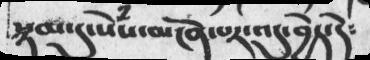སྙམ་དུ་སེཾས་མངོན་པར་འདུ་བྱེད་དེ༴
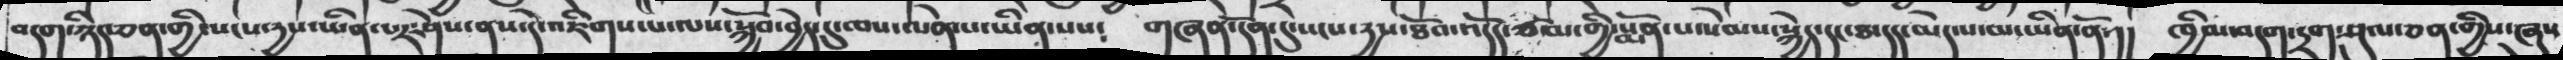བདག་ཉིད་ཅན་གྱི་སངས་རྒྱས་ཡིན་པར་ཤེས་ནས་དེ་འཇིགས་པ་ལས་སྐྱོབ་བྱེད་དུ་ཁེས་ལེན་པ་ཡིན་པས༴    གཞན་དོན་དུ་སངས་རྒྱས་ཐོབ་འདོད་ཙམ་གྱི་སྨོན་པ་སེམས་སྐྱེད་དང་ཐ་དད་མེད་པ་མ་ཡིན་ནོ་།།   ཁྱིམ་བདག་ཏྲག་ཤུལ་ཅན་གྱིས་ཞུས
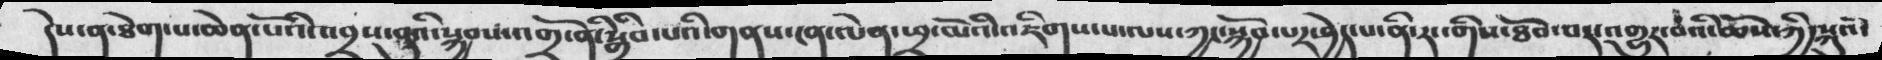དེས་ན་ཐེག་པ་ཆེན་པོའི་འབྲས་བུའི་སྐྱབས་འགྲོ་ནི་སྒྲིབ་པའི་གནས་ངན་ལེན་ཕྲ་མོའི་འཇིགས་པ་ལས་ཀྱང་སྐྱོབ་པར་བྱེད་པ་ནི་རང་གིས་ཐོབ་པར་འགྱུར་བའི་ཆོས་ཀྱི་སྐུའོ
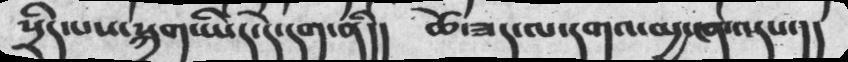སྲིད་པས་སྐྲག་ཡིད་དེ་དག་ནི།།    ཆོས་ཟད་ལ་དགའ་མྱ་ངན་འདས་།།
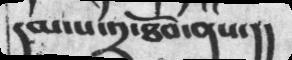དམ་པ་༢་ཐོབ་ནས་།།
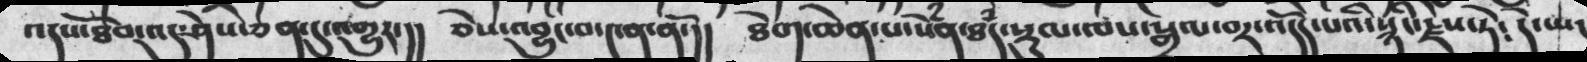འདས་ཐོབ་འདུ་ཤེས་ཅན་དུ་འགྱུར་།།   ཅེས་འབྱུང་བ་༤ན་ནོ་།།    ཐེག་ཆེན་པ་སེནྃ་ཐྃད་སྡུལ་ལས་སྒྲལ་བར་འདོད་པའི་སྙིང་རྗེས་ཏེ༴  དེ་ཡང་
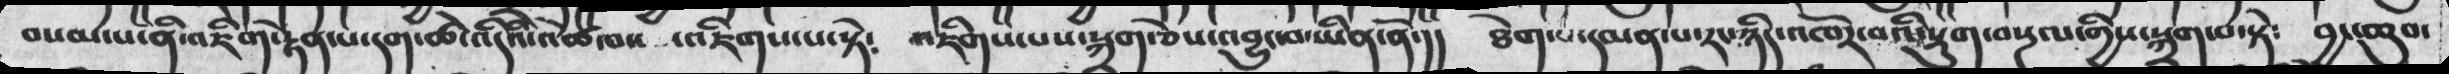བསམ་པ་ནི་འཇིག་རྟེན་པ་དག་ཚེ་འདིའི་འཚོ་བས་འཇིགས་པ་སྟེ༴  འཇིག་པས་སྐྲག་ཅེས་འབྱུང་བ་ཡིན་ནོ་།།   ཐེག་པ་དམན་པ་རང་ཉིད་འཁོར་བའི་སྡུག་བསྔལ་གྱིས་སྐྲག་པ་སྟེ༴   བྱང་ཆུབ་
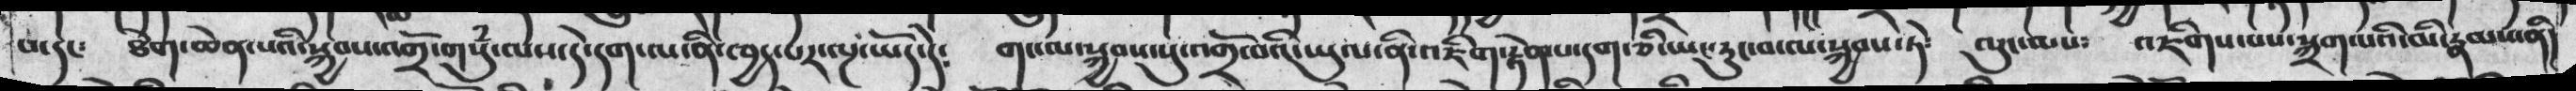བ་དང༴  ཐེག་ཆེན་པའི་སྐྱབས་འགྲོ་གསུཾ་ལས་དེ་དག་ནི་ཁྱད་པར་ལྔ་ཡོད་དེ༴   གང་ལ་སྐྱབས་སུ་འགྲོ་བའི་་ཡུལ་ནི་འཇིག་རྟེན་པ་དག་ཅི་ཡང་རུང་བ་ལ་སྐྱབས་ཏེ༴  ལུང་ལས༴     འཇིགས་པས་སྐྲག་པའི་མི་རྣམས་ནི།
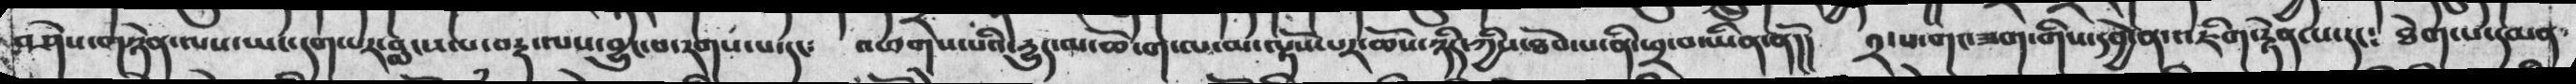བཤེས་གཉེན་ལས་ཡང་དག་པར་བླངས་པ་བརྡ་ལས་བྱུང་རགས་པ་དང༴  འཕགས་པའི་རྒྱུད་ལ་ཆོ་ག་ལ་མ་ལྟོས་པར་ཆོས་ཉིད་ཀྱིས་ཐོབ་པ་ནི་ཕྲ་བ་ཡིན་ནོ།།   ༢་པ་གང་ཟག་གིས་དབྱེ་ན་འཇིག་རྟེན་པ་དང༴ ཐེག་པ་དམན༴
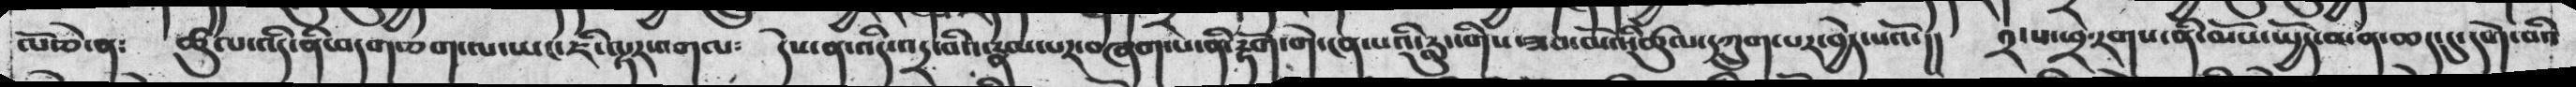ལོ་ཅེ་ན༴  ཚུལ་འདི་ནི་བདག་ཅག་ལ་ཡང་ཇི་ལྟར་འགལ༴  དེས་ན་འདིི་འདྲ་བའི་རྣམ་པར་བཞག་པ་ནི་རྟོག་གེ་ངན་པའི་རླུང་གིས་ཟབ་མོའི་ཚུལ་དཀྲུག་པར་བྱེད་པའོ་།།   ༢་པ་ཕྲ་རགས་ནི་མོས་ཡྱོད་མན་ཆད་དུ་དགེ་བའི
